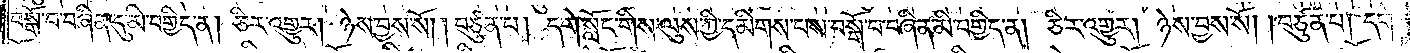བསྒོ་བ་བཞིན་དུ་མི་བགྱིད་ན། ཅིར་འགྱུར། ཉེས་བྱས་སོ། །བཙུན་པ། དགེ་སློང་གིས་ལུས་ཀྱི་དམིགས་པས་བསྒོ་བ་བཞིན་མི་བགྱིད་ན། ཅིར་འགྱུར། ཉེས་བྱས་སོ། །བཙུན་པ། དང་།
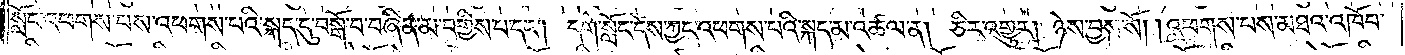སློང་འཕགས་པས་འཕགས་པའི་སྐད་དུ་བསྒོ་བ་བཞིན་མ་བགྱིས་པ་དང༌། དགེ་སློང་དེས་ཀྱ་འཕགས་པའི་སྐད་མ་འཚལ་ན། ཅིར་འགྱུར། ཉེས་བྱས་སོ། །འཕགས་པས་མཐའ་འཁོབ་
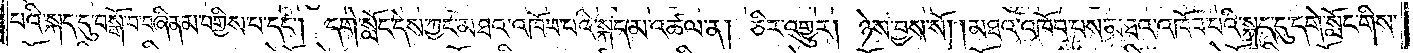པའི་སྐད་དུ་བསྒོ་བ་བཞིན་མ་བགྱིས་པ་དང༌། དགེ་སློང་དེས་ཀྱང་མཐའ་འཁོབ་པའི་སྐད་མ་འཚལ་ན། ཅིར་འགྱུར། ཉེས་བྱས་སོ། །མཐའ་འཁོབ་པས་མཐའ་འཁོབ་པའི་སྐད་དུ་དགེ་སློང་གིས་
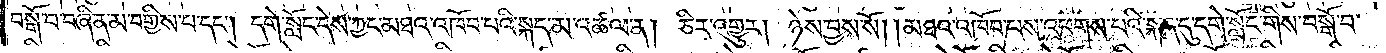བསྒོ་བ་བཞིན་མ་བགྱིས་པ་དང༌། དགེ་སློང་དེས་ཀྱང་མཐའ་འཁོབ་པའི་སྐད་མ་འཚལ་ན། ཅིར་འགྱུར། ཉེས་བྱས་སོ། །མཐའ་འཁོབ་པས་འཕགས་པའི་སྐད་དུ་དགེ་སློང་གིས་བསྒོ་བ་
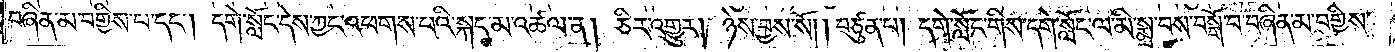བཞིན་མ་བགྱིས་པ་དང༌། དགེ་སློང་དེས་ཀྱང་འཕགས་པའི་སྐད་མ་འཚལ་ན། ཅིར་འགྱུར། ཉེས་བྱས་སོ། །བཙུན་པ། དགེ་སློང་གིས་དགེ་སློང་ལ་མི་སྨྲ་བས་བསྒོ་བ་བཞིན་མ་བགྱིས་
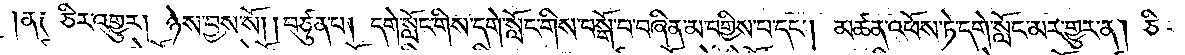།ན༑ ཅིར་འགྱུར། ཉེས་བྱས་སོ། །བཙུན་པ། དགེ་སློང་གིས་དགེ་སློང་གིས་བསྒོ་བ་བཞིན་མ་བགྱིས་པ་དང༌། མཚན་འཕོས་ཏེ་དགེ་སློང་མར་གྱུར་ན། ཅིར་
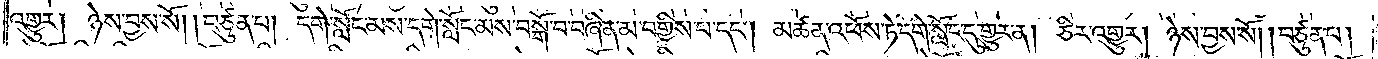འགྱུར། ཉེས་བྱས་སོ། །བཙུན་པ། དགེ་སློང་མས་དགེ་སློང་མས་བསྒོ་བ་བཞིན་མ་བགྱིས་པ་དང༌། མཚན་འཕོས་ཏེ་དགེ་སློང་དུ་གྱུར་ན། ཅིར་འགྱུར། ཉེས་བྱས་སོ། །བཙུན་པ།
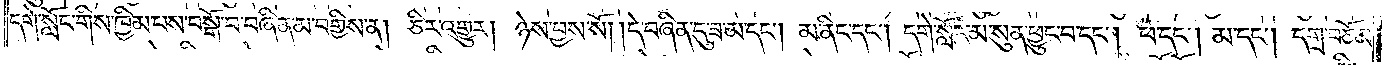དགེ་སློང་གིས་ཁྱིམ་པས་བསྒོ་བ་བཞིན་མ་བགྱིས་ན། ཅིར་འགྱུར། ཉེས་བྱས་སོ། །དེ་བཞིན་དུ་ཟ་མ་དང༌། མ་ནིང་དང༌། དགེ་སློང་མ་སུན་ཕྱུང་བ་དང༌། ཕ་དང༌། མ་དང༌། དགྲ་བཅོམ་
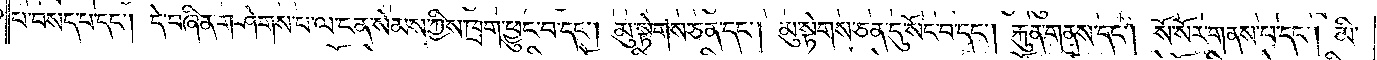པ་བསད་པ་དང༌། དེ་བཞིན་གཤེགས་པ་ལ་ངན་སེམས་ཀྱིས་ཁྲག་ཕྱུང་བ་དང༌། མུ་སྟེགས་ཅན་དང༌། མུ་སྟེགས་ཅན་དུ་སོང་བ་དང༌། རྐུན་གནས་དང༌། སོ་སོར་གནས་པ་དང༌། མི་
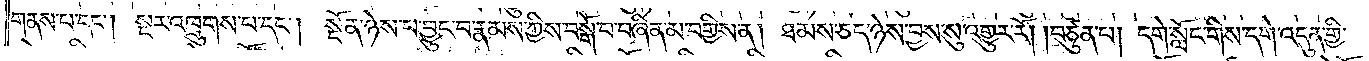གནས་པ་དང༌། སྔར་འཁྲུགས་པ་དང༌། སྔོན་ཉེས་པ་བྱུང་བ་རྣམས་ཀྱིས་བསྒོ་བ་བཞིན་མ་བགྱིས་ན། ཐམས་ཅད་ཉེས་བྱས་སུ་འགྱུར་རོ། །བཙུན་པ། དགེ་སློང་གིས་དགེ་འདུན་གྱི་
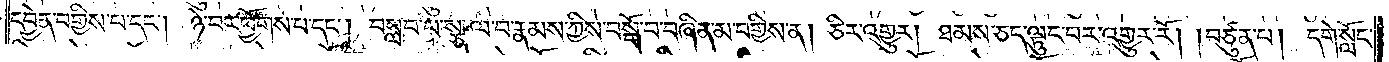དབྱེན་བགྱིས་པ་དང༌། ཉེ་བར་ཕྱོགས་པ་དང༌། བསླབ་པ་སྩལ་བ་རྣམས་ཀྱིས་བསྒོ་བ་བཞིན་མ་བགྱིས་ན། ཅིར་འགྱུར། ཐམས་ཅད་ལྟུང་བར་འགྱུར་རོ། །བཙུན་པ། དགེ་སློང་
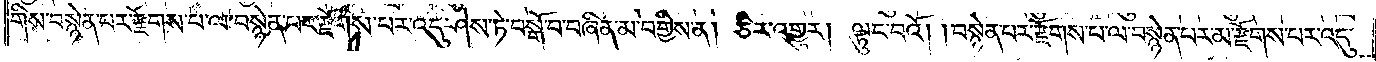གིས་བསྙེན་པར་རྫོགས་པ་ལ་བསྙེན་པར་རྫོགས་པར་འདུ་ཤེས་ཏེ་བསྒོ་བ་བཞིན་མ་བགྱིས་ན། ཅིར་འགྱུར། ལྟུང་བའོ། །བསྙེན་པར་རྫོགས་པ་ལ་བསྙེན་པར་མ་རྫོགས་པར་འདུ་
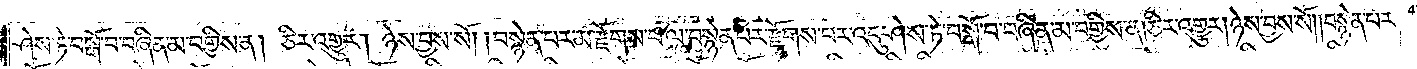ཤེས་ཏེ་བསྒོ་བ་བཞིན་མ་བགྱིས་ན། ཅིར་འགྱུར། ཉེས་བྱས་སོ། །བསྙེན་པར་མ་རྫོགས་པ་ལ་བསྙེན་པར་རྫོགས་པར་འདུ་ཤེས་ཏེ་བསྒོ་བ་བཞིན་མ་བགྱིས་ན། ཅིར་འགྱུར། ཉེས་བྱས་སོ། །བསྙེན་པར་
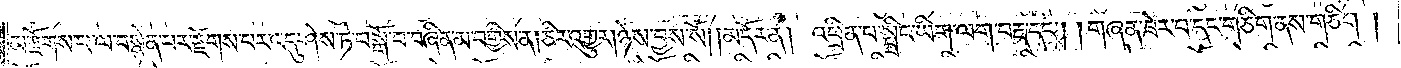མ་རྫོགས་པ་ལ་བསྙེན་པར་རྫོགས་པར་འདུ་ཤེས་ཏེ་བསྒོ་བ་བཞིན་མ་བགྱིས་ན། ཅིར་འགྱུར། ཉེས་བྱས་སོ། །མདོར་ན། འཕྲིན་པ་སྤྲིང་ཡིག་ལག་བརྡ་དང༌། །གཞན་ཟེར་བ་དང་གཅིག་ནས་གཅིག།
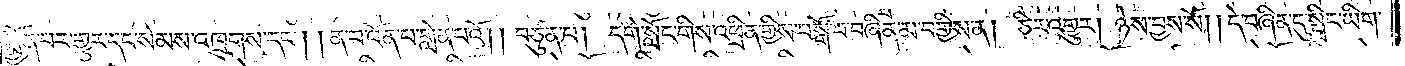སྨྱོན་པར་གྱུར་དང་སེམས་འཁྲུགས་དང༌། །ན་བ་འོན་པ་གླེན་པའོ། །བཙུན་པ། དགེ་སློང་གིས་འཕྲིན་གྱིས་བསྒོ་བ་བཞིན་མ་བགྱིས་ན། ཅིར་འགྱུར། ཉེས་བྱས་སོ། །དེ་བཞིན་དུ་སྤྲིང་ཡིག་
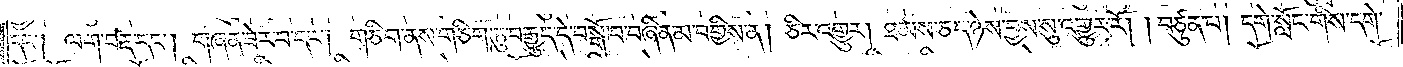དང༌། ལག་བརྡ་དང༌། གཞན་ཟེར་བ་དང༌། གཅིག་ནས་གཅིག་ཏུ་བརྒྱུད་དེ་བསྒོ་བ་བཞིན་མ་བགྱིས་ན། ཅིར་འགྱུར། ཐམས་ཅད་ཉེས་བྱས་སུ་འགྱུར་རོ། །བཙུན་པ། དགེ་སློང་གིས་དགེ་
